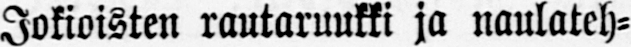Jokioisten rautaruukki ja naulateh-
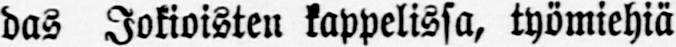das Jokioisten kappelissa, työmiehiä
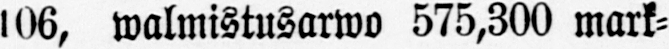106, walmistusarwo 575,300 mark-
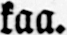kaa.
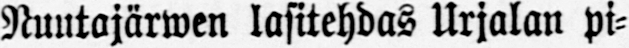Nuutajärwen lasitehdas Urjalan pi-
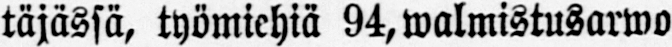täjässä, työmiehiä 94, walmistusarwo
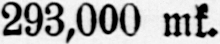293,000 mk.
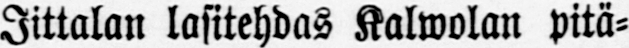Iittalan lasitehdas Kalvolan pitä-
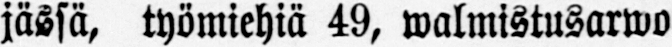jässä, työmiehiä 49, walmistusarwo
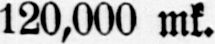120,000 mk.
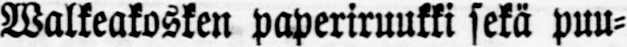Walkeakosken paperimuki sekä puu-
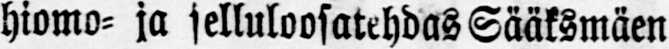hiomo- ja selluloosatehdas Sääksmäen
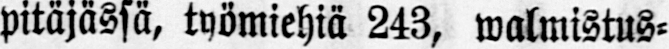pitäjässä, työmiehiä 243, walmistus-
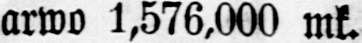arwo 1,576,000 mk.
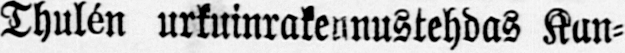Thulén urkuinrakennustehdas Kan-
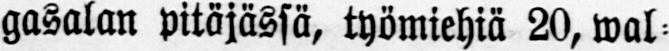gasalan pitäjässä, työmiehiä 20, wal-
